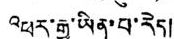འཕར་རྒྱུ་ཡིན་པ་རེད།
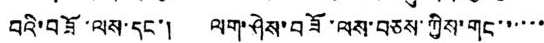བའི་བཟོ་ལས་དང་། ལག་ཤེས་བཟོ་ལས་བཅས་ཀྱིས་གང་་་་་་
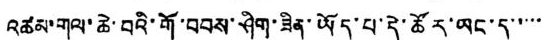འཚམ་གལ་ཆེ་བའི་གོ་བབས་ཤིག་ཟིན་ཡོད་པ་དེ་ཚོར་ཡང་ད་་་་་
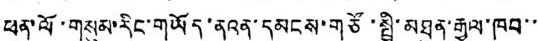ཕན་ལོ་གསུམ་རིང་གཡོད་ནའན་དམངས་གཙོ་སྤྱི་མཐུན་རྒྱལ་ཁབ་་
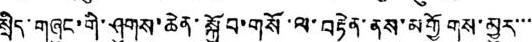སྲིད་གཞུང་གི་ཤུགས་ཆེན་སྐྱོབ་གསོ་ལ་བརྟེན་ནས་མགྱོགས་མྱུར་་་
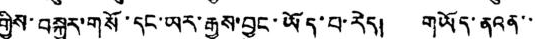གྱིས་བསྐྱར་གསོ་དང་ཡར་རྒྱས་བྱུང་ཡོད་པ་རེད། གཡོད་ནའན་་
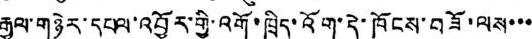རྒྱལ་གཉེར་དཔལ་འབྱོར་གྱི་འགོ་ཁྲིད་འོག་དེ་ཁོངས་བཟོ་ལས་་་
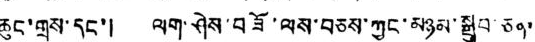ཆུང་གྲས་དང་། ལག་ཤེས་བཟོ་ལས་བཅས་ཀྱང་མཉམ་སྒྲུབ་ཅན་
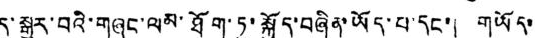དུ་སྒྱུར་བའི་གཞུང་ལམ་ཐོག་ཏུ་སྐྱོད་བཞིན་ཡོད་པ་དང་། གཡོད་
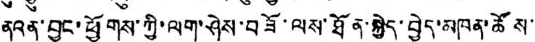ནའན་བྱང་ཕྱོགས་ཀྱི་ལག་ཤེས་བཟོ་ལས་ཐོན་སྐྱེད་བྱེད་མཁན་ཚོས་
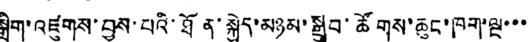སྒྲིག་འཛུགས་བྱས་པའི་ཐོན་སྐྱེད་མཉམ་སྒྲུབ་ཚོགས་ཆུང་ཁག་ལྔ་་་
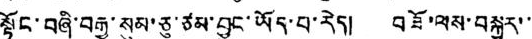སྟོང་བཞི་བརྒྱ་སུམ་ཅུ་ཙམ་བྱུང་ཡོད་པ་རེད། བཟོ་ལས་བསྐྱར་་
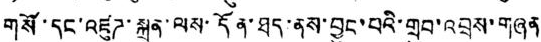གསོ་དང་འཛུཊ་སྐྲུན་ལས་དོན་ཐད་ནས་བྱུང་བའི་གྲུབ་འབྲས་གཞན
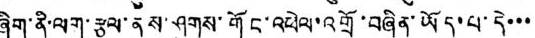ཞིག་ནི་ལག་རྩལ་ནུས་ཤུགས་གོང་འཕེལ་འགྲོ་བཞིན་ཡོད་པ་དེ་་་
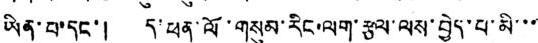ཡིན་པ་དང་། ད་ཕན་ལོ་གསུམ་རིང་ལག་རྩལ་ལས་བྱེད་པ་མི་་་
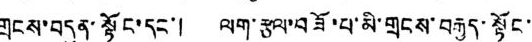གྲངས་བདུན་སྟོང་དང་། ལག་རྩལ་བཟོ་པ་མི་གྲངས་བརྒྱད་སྟོང་
